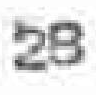28
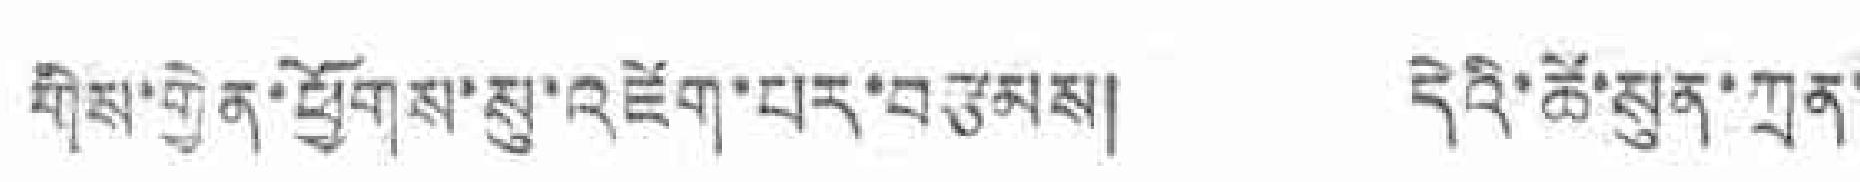གིས་གྱེན་ཕྱོགས་སུ་འཇོག་པར་བརྩམས། དེའི་ཚེ་སུན་ཀྲན་
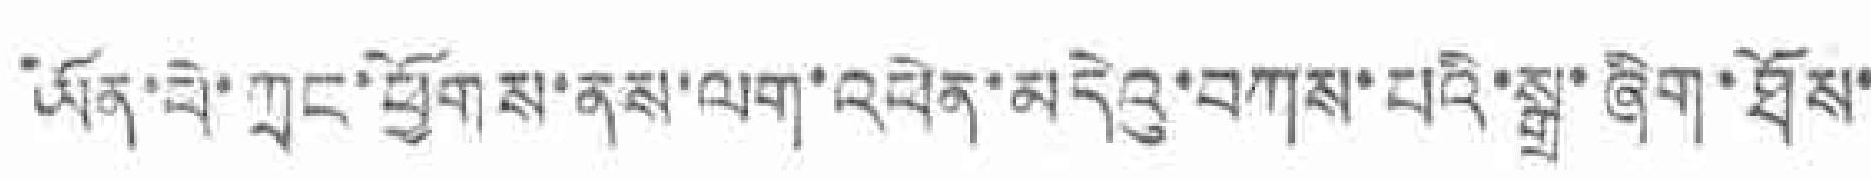ཡོན་ཕེ་ཀྲང་ཕྱོགས་ནས་ལག་འཕེན་མདེའུ་བཀས་པའི་སྒྲ་ཞིག་ཐོས་
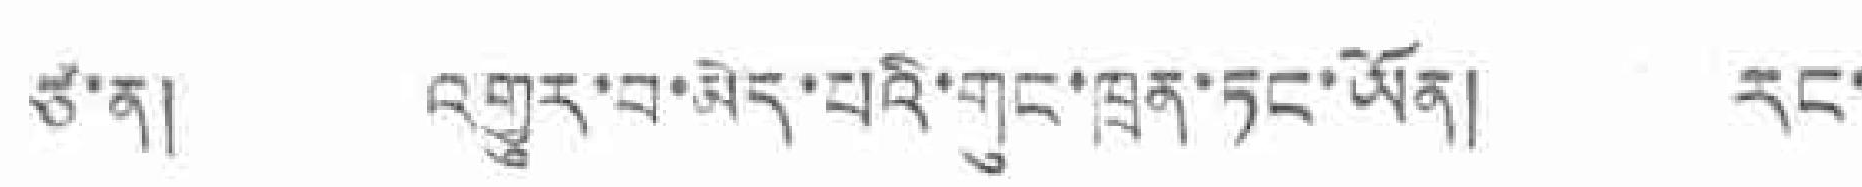ཙ་ན། འགྱུར་བ་མེད་པའི་གུང་ཁྲན་ཏང་ཡོན། རང་
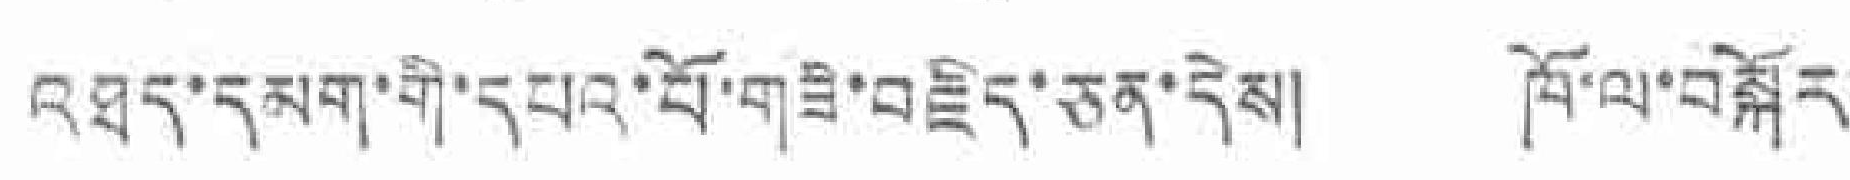འཐད་དམག་གི་དཔའ་པོ་གཟི་བརྗིད་ཅན་དེས། ཁོ་ལ་བསྐོར་
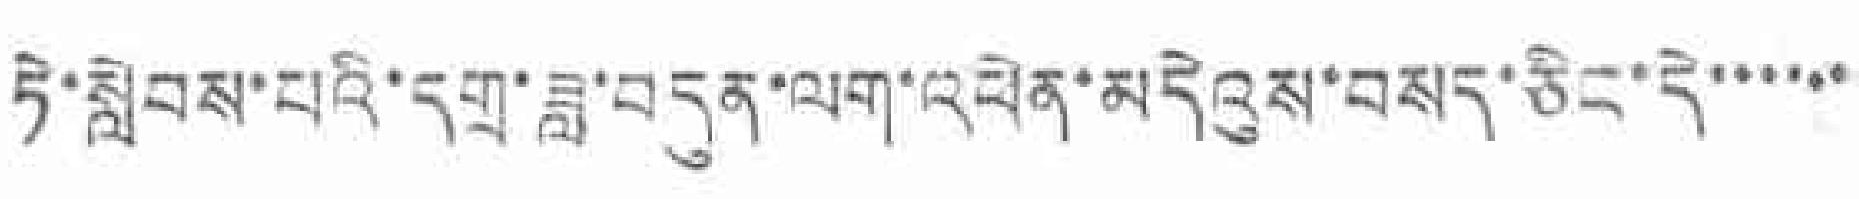ཏེ་སླེབས་པའི་དགྲ་ཟླ་བདུན་ལག་འཕེན་མདེའུས་བསད་ཅིང་དེ་་་་་་
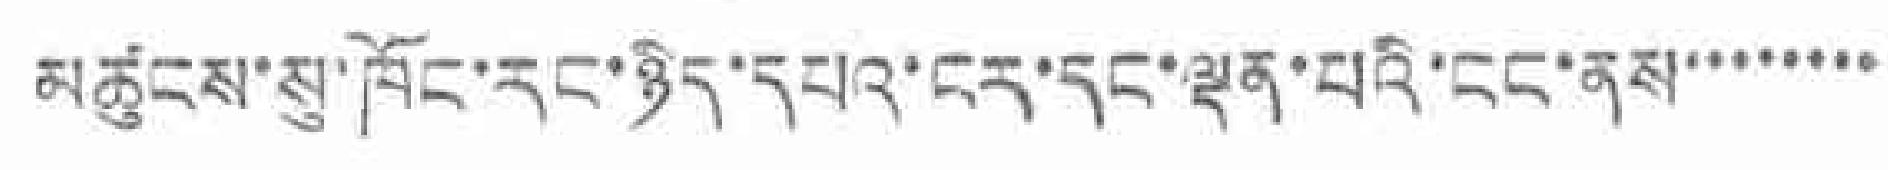མཚུངས་སུ་ཁོང་རང་ཉིད་དཔའ་ངར་དང་སྡན་པའི་ངང་ནས་་་་་་་་
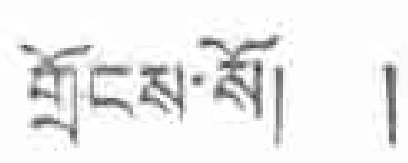གྲོངས་སོ། །
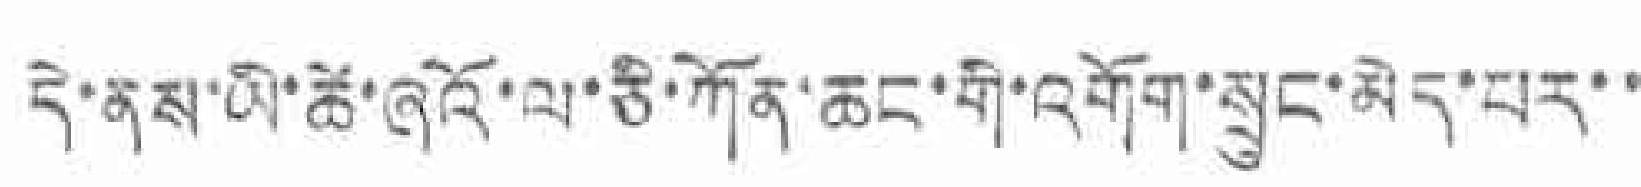དེ་ནས་ཡི་ཚེ་ཞའོ་ལ་ཅི་ཀོན་ཆང་གི་འགོག་སྲུང་མེད་པར་་
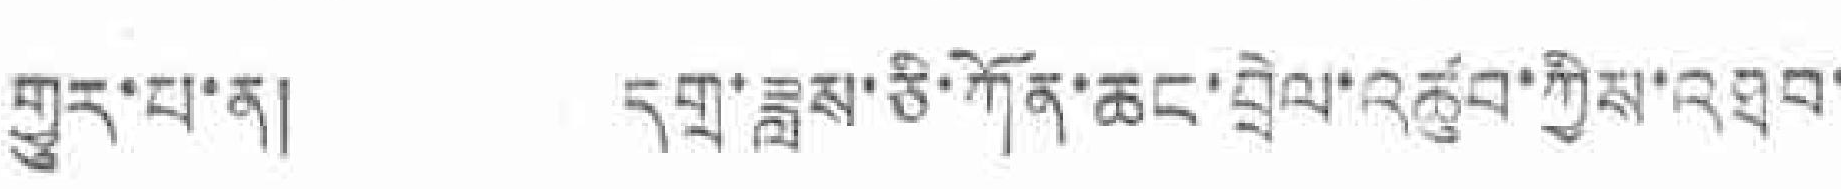གྱུར་པ་ན། དགྲ་ཟླས་ཅི་ཀོན་ཆང་བྲེལ་འཚུབ་ཀྱིས་འཐབ་
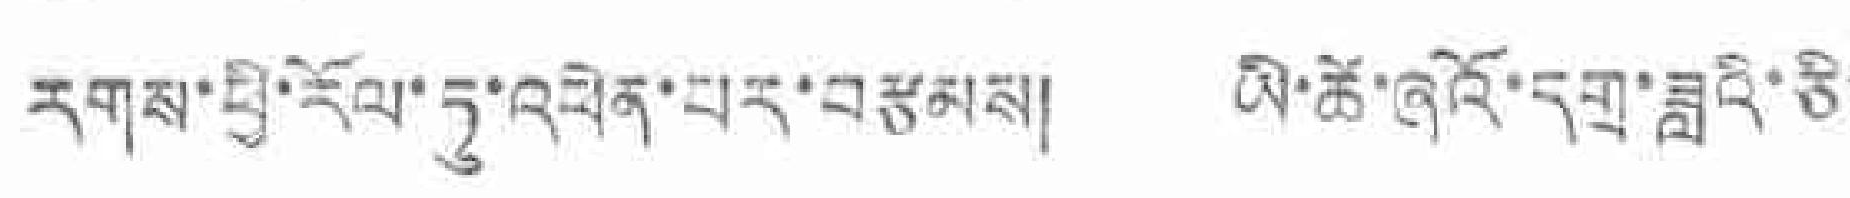རགས་ཕྱི་རོལ་ཏུ་འཕེན་པར་བརྩམས། ཡི་ཚེ་ཞའོ་དགྲ་ཟླའི་ཅི་
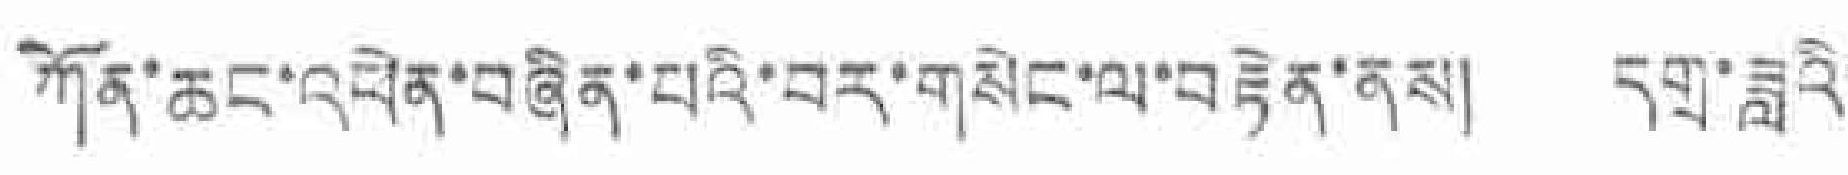ཀོན་ཆང་འཕེན་བཞིན་པའི་བར་གསེང་ལ་བརྟེན་ནས། དགྲ་ཟླའི་
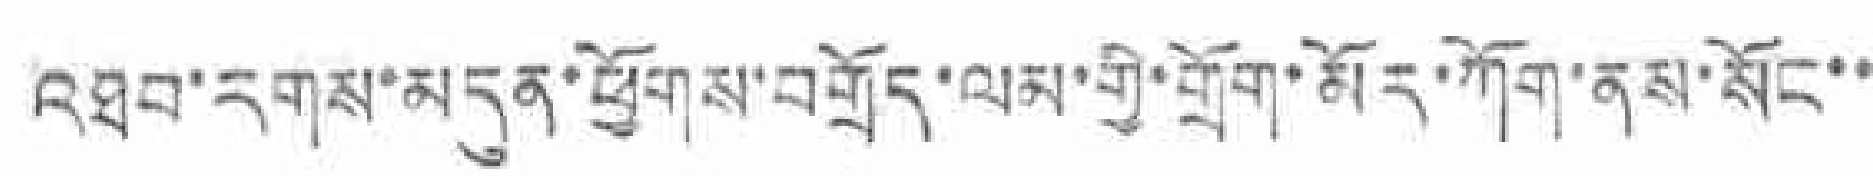འཐབ་རགས་མདུན་ཕྱོགས་བགྲོད་ལམ་གྱི་གྲོག་མོར་ཀོག་ནས་སོང་་
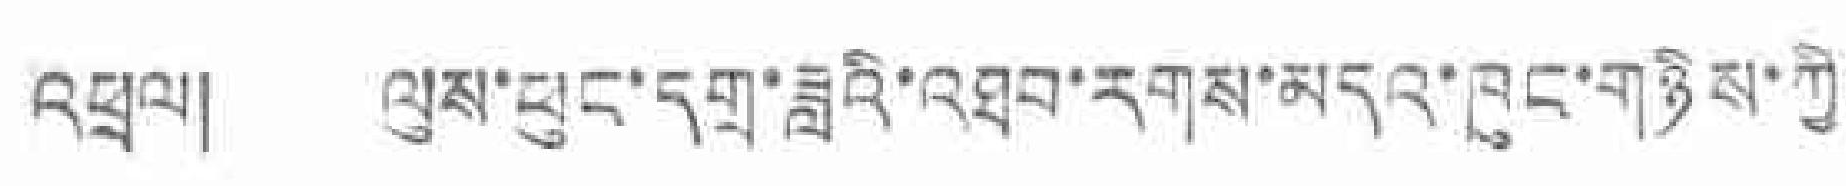འཕྲལ། ལུས་ཕུང་དགྲ་ཟླའི་འཐབ་རགས་མདའ་ཁུང་གཉིས་ཀྱི་
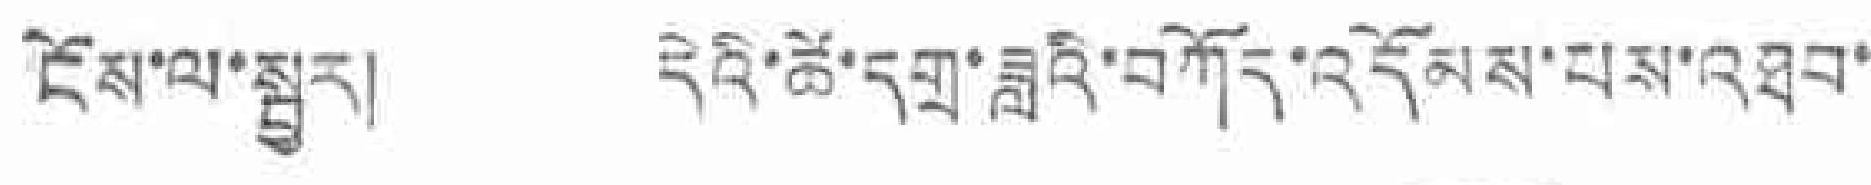ངོས་ལ་སྦྱར། དེའི་ཚེ་དགྲ་ཟླའི་བཀོད་འདོམས་པས་འཐབ་
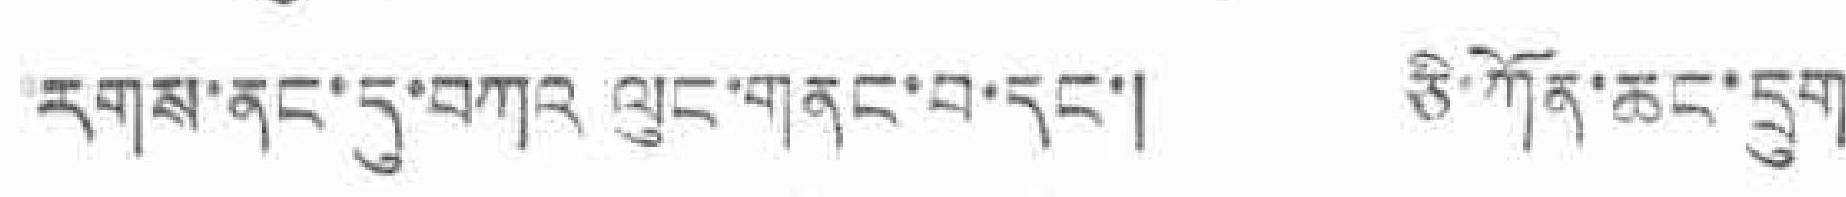རགས་ནང་དུ་བཀའ་ལུང་གནང་བ་དང་། ཅི་ཀོན་ཆང་དྲུག་
